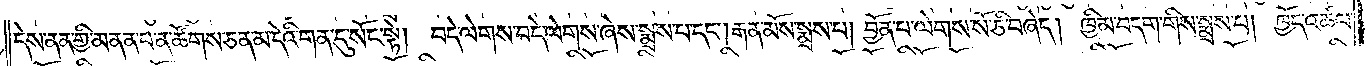དེས་ནན་གྱི་མནན་པ་ན་ཚོགས་ཅན་མ་དེའི་གན་དུ་སོང་སྟེ། བདེ་ལེགས་བདེ་ལེགས་ཞེས་སྨྲས་པ་དང༌། རྒན་མོས་སྨྲས་པ། བྱོན་པ་ལེགས་སོ་ཅི་བཞེད། ཁྱིམ་བདག་གིས་སྨྲས་པ། ཁྱོད་འཚལ་
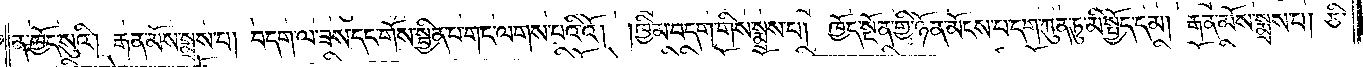ན་ཁྱོད་སུའི། རྒན་མོས་སྨྲས་པ། བདག་ལ་ཟས་དང་གོས་སྦྱིན་པ་གང་ལགས་པའི་འོ། །ཁྱིམ་བདག་གིས་སྨྲས་པ། ཁྱོད་སྔོན་གྱི་ཉོན་མོངས་པ་དག་ཀུན་ཏུ་མི་སྤྱོད་དམ། རྒན་མོས་སྨྲས་པ། ཅི་
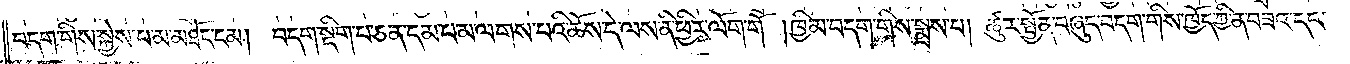བདག་གིས་སྐྱེས་པ་མ་མཐོང་ངམ། བདག་སྡིག་པ་ཅན་དམ་པ་མ་ལགས་པའི་ཆོས་དེ་ལས་ནི་ཕྱིར་ལོག་གོ །ཁྱིམ་བདག་གིས་སྨྲས་པ། ཚུར་སྤྱོན་བཞུད་བདག་གིས་ཁྱོད་ཀྱི་ན་བཟའ་དང་
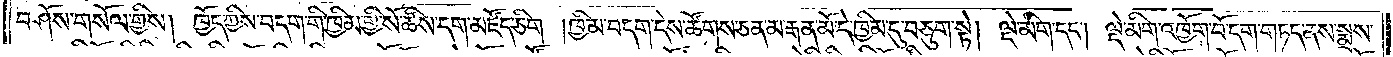བཤོས་གསོལ་གྱིས། ཁྱོད་ཀྱིས་བདག་གི་ཁྱིམ་གྱི་སོ་ཚིས་དག་མཛོད་ཅིག །ཁྱིམ་བདག་དེས་ཚོགས་ཅན་མ་རྒན་མོ་དེ་ཁྱིམ་དུ་བཅུག་སྟེ། ལྡེ་མིག་དང༌། ལྡེ་མིག་འཁྱོག་པོ་དག་གཏད་ནས་སྨྲས་
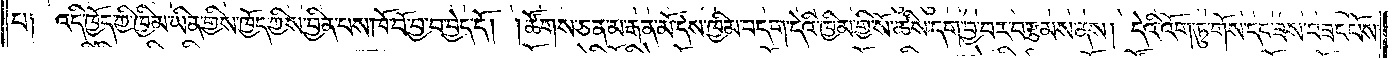པ༑ འདི་ཁྱོད་ཀྱི་ཁྱིམ་ཡིན་གྱིས་ཁྱོད་ཀྱིས་བྱིན་པས་ཁོ་བོ་བྱ་བ་བྱེད་དོ། །ཚོགས་ཅན་མ་རྒན་མོ་དེས་ཁྱིམ་བདག་དེའི་ཁྱིམ་གྱི་སོ་ཚིས་དག་བྱ་བར་བརྩམས་ནས། དེའི་འོག་ཏུ་གོས་དང་ཟས་བཟང་པོས་
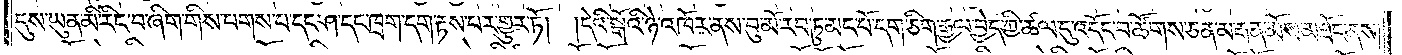དུས་ཡུན་མི་རིང་བ་ཞིག་གིས་པགས་པ་དང་ཤ་དང་ཁྲག་དག་རྟས་པར་གྱུར་ཏོ། །དེའི་སྒོའི་ཉེ་འཁོར་ནས་བུ་མོ་རབ་ཏུ་མང་པོ་དག་ཅིག་རྒྱལ་བྱེད་ཀྱི་ཚལ་དུ་འདོང་བ་ཚོགས་ཅན་མ་རྒན་མོས་མཐོང་ནས།
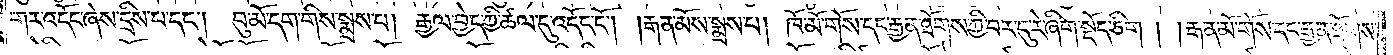གར་འདོང་ཞེས་དྲིས་པ་དང༌། བུ་མོ་དག་གིས་སྨྲས་པ། རྒྱལ་བྱེད་ཀྱི་ཚལ་དུ་འདོང་ངོ༌། །རྒན་མོས་སྨྲས་པ། ཁོ་མོ་གོས་དང་རྒྱན་ཐོགས་ཀྱི་བར་དུ་རེ་ཞིག་སྡོད་ཅིག། །རྒན་མོ་གོས་དང་རྒྱན་ཐོགས་
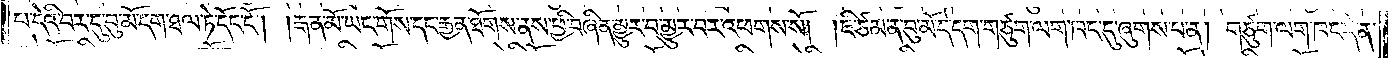པ་དེའི་བར་དུ་བུ་མོ་དག་ཐལ་ཏེ་དོང་ངོ༌། །རྒན་མོ་ཡང་གོས་དང་རྒྱན་ཐོགས་ནས་ཕྱི་བཞིན་མྱུར་བ་མྱུར་བར་འཕགས་སོ། །ཇི་ཙམ་ན་བུ་མོ་དེ་དག་གཙུག་ལག་ཁང་དུ་ཞུགས་པ་ན། གཙུག་ལག་ཁང་དེ་ན་
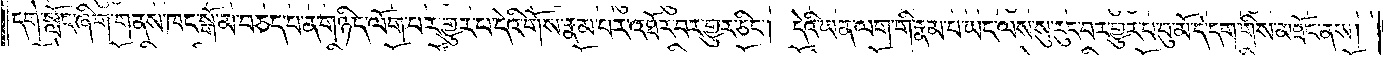དགེ་སློང་ཞིག་གནས་ཁང་སྒོ་མ་བཅད་པ་ན་གཉིད་ལོག་པར་གྱུར་པ་དེའི་གོས་རྣམ་པར་འཐོར་བར་གྱུར་ཅིང༌། དེའི་ཡན་ལག་གི་རྣམ་པ་ཡང་ལས་སུ་རུང་བར་གྱུར་པ་བུ་མོ་དེ་དག་གིས་མཐོང་ནས།
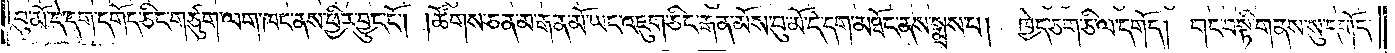བུ་མོ་དེ་དག་དགོད་ཅིང་གཙུག་ལག་ཁང་ནས་ཕྱིར་བྱུང་ངོ༌། །ཚོགས་ཅན་མ་རྒན་མོ་ཡང་འཇུག་ཅིང་རྒན་མོས་བུ་མོ་དེ་དག་མཐོང་ནས་སྨྲས་པ། ཁྱེད་ཅག་ཅི་ལ་དགོད། གང་བསྟི་གནས་སུ་དགོད་
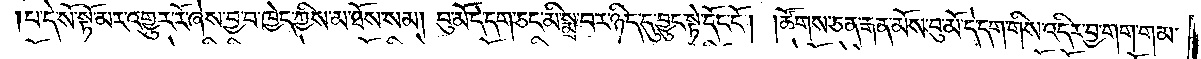།པ་དེ་སོ་སྟོ་མར་འགྱུར་རོ་ཞེས་བྱ་བ་ཁྱེད་ཀྱིས་མ་ཐོས་སམ། བུ་མོ་དེ་དག་ཅང་མི་སྨྲ་བར་ཉིད་དུ་བྱུང་སྟེ་དོང་ངོ༌། །ཚོགས་ཅན་རྒན་མོས་བུ་མོ་དེ་དག་གིས་འདིར་བྱ་གག་གམ་
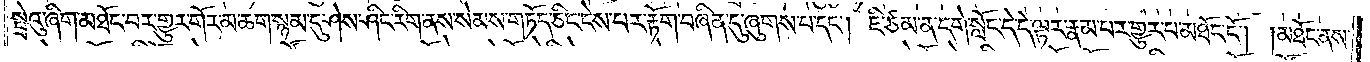སྤྲེའུ་ཞིག་མཐོང་བར་གྱུར་གོར་མ་ཆག་སྙམ་དུ་ཤེས་ཤིང་རིག་ནས་སེམས་གཏོད་ཅིང་ངེས་པར་རྟོག་བཞིན་དུ་ཞུགས་པ་དང༌། ཇི་ཙམ་ན་དགེ་སློང་དེ་དེ་ལྟར་རྣམ་པར་གྱུར་པ་མཐོང་ངོ༌། །མཐོང་ནས་
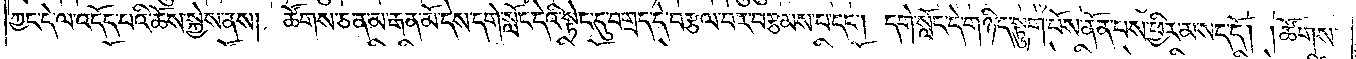ཀྱང་དེ་ལ་འདོད་པའི་ཆོས་སྐྱེས་ནས། ཚོགས་ཅན་མ་རྒན་མོ་དེས་དགེ་སློང་དེའི་སྟེང་དུ་བགྲད་དེ་བརྩལ་བར་བརྩམས་པ་དང༌། དགེ་སློང་དེ་གཉིད་སྟུག་པོས་ནོན་པས་ཕྱིར་མ་སད་དོ། །ཚོགས་
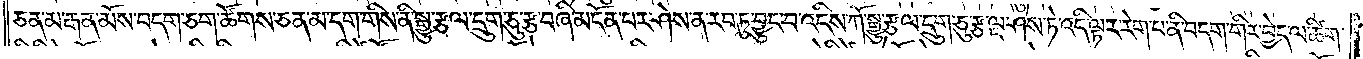ཅན་མ་རྒན་མོས་བདག་ཅག་ཚོགས་ཅན་མ་དག་གིས་ནི་སྒྱུ་རྩལ་དྲུག་ཅུ་རྩ་བཞི་མངོན་པར་ཤེས་ན་རབ་ཏུ་བྱུང་བ་འདིས་ཀོ་སྒྱུ་རྩལ་དྲུག་ཅུ་རྩ་ལྔ་ཤེས་ཏེ་འདི་ལྟར་རེག་པ་ནི་བདག་གིར་བྱེད་ལ་ཚིག་
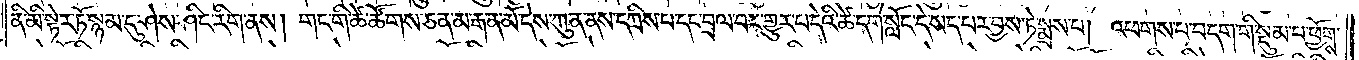ནི་མི་སྟེར་ཏོ་སྙམ་དུ་ཤེས་ཤིང་རིག་ནས། གང་གི་ཚེ་ཚོགས་ཅན་མ་རྒན་མོ་དེས་ཀུན་ནས་དཀྲིས་པ་དང་བྲལ་བར་གྱུར་པ་དེའི་ཚེ་དགེ་སློང་དེ་སད་པར་བྱས་ཏེ་སྨྲས་པ། འཕགས་པ་བདག་གི་སྡུམ་པ་ཕྱོགས་
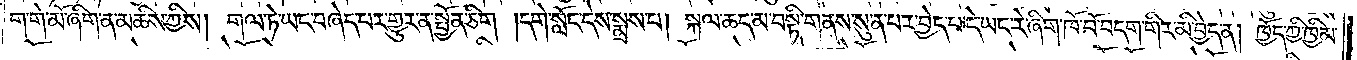ག་གེ་མོ་ཞིག་ན་མཆིས་ཀྱིས། གལ་ཏེ་ཡང་བཞེད་པར་གྱུར་ན་སྤྱོན་ཅིག །དགེ་སློང་དེས་སྨྲས་པ། སྐལ་ཆད་མ་བསྟི་གནས་སུ་ན་པར་བྱེད་པ་དེ་ཡང་རེ་ཞིག་ཁོ་བོ་བདག་གིར་མི་བྱེད་ན། ཁྱོད་ཀྱི་ཁྱིམ་
